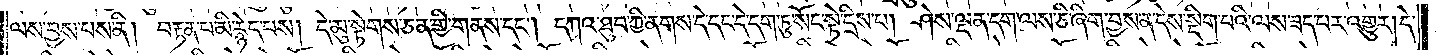ལས་བྱས་པས་ནི། བརྟན་པ་མི་རྙེད་པས། དེ་མུ་སྟེགས་ཅན་གྱི་གནས་དང༌། དཀའ་ཐུབ་ཀྱི་ནགས་དེ་དང་དེ་དག་ཏུ་སོང་སྟེ་དྲིས་པ། ཤེས་ལྡན་དག་ལས་ཅི་ཞིག་བྱས་ན་དེས་སྡིག་པའི་ལས་ཟད་པར་འགྱུར། དེ་
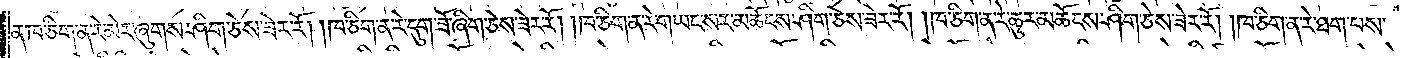ན་ཁ་ཅིག་ན་རེ་མེར་ཞུགས་ཤིག་ཅེས་ཟེར་རོ། །ཁ་ཅིག་ན་རེ་དུག་ཟོ་ཞིག་ཅེས་ཟེར་རོ། །ཁ་ཅིག་ན་རེ་གཡང་སར་མཆོངས་ཤིག་ཅེས་ཟེར་རོ། །ཁ་ཅིག་ན་རེ་ཆུར་མཆོངས་ཤིག་ཅེས་ཟེར་རོ། །ཁ་ཅིག་ན་རེ་ཐག་པས་
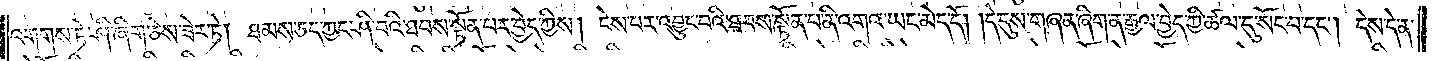འགགས་ཏེ་ཤི་ཞིག་ཅེས་ཟེར་ཏེ། ཐམས་ཅད་ཀྱང་ཤི་བའི་ཐབས་སྟོན་པར་བྱེད་ཀྱིས། ངེས་པར་འབྱུང་བའི་ཐབས་སྟོན་པ་ནི་འགའ་ཡང་མེད་དོ། །དེ་དུས་གཞན་ཞིག་ན་རྒྱལ་བྱེད་ཀྱི་ཚལ་དུ་སོང་བ་དང༌། དེས་དེ་ན་
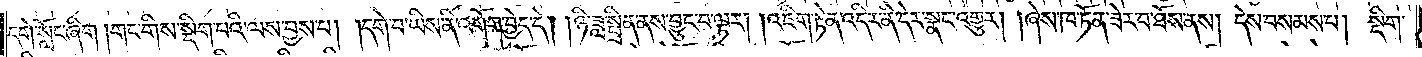དགེ་སློང་ཞིག །གང་གིས་སྡིག་པའི་ལས་བྱས་པ། །དགེ་བ་ཡིས་ནི་འགོག་བྱེད་དེ། །ཉི་ཟླ་སྤྲིན་ནས་བྱུང་བ་ལྟར། །འཇིག་རྟེན་འདིར་ནི་དེར་སྣང་འགྱུར། །ཞེས་ཁ་ཏོན་ཟེར་བ་ཐོས་ནས། དེས་བསམས་པ། སྡིག་
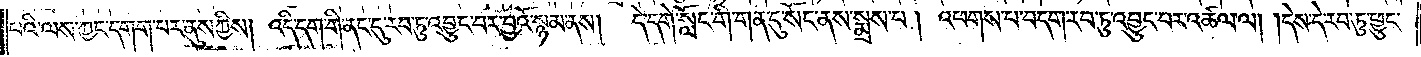པའི་ལས་ཀྱང་དགག་པར་ནུས་ཀྱིས། འདི་དག་གི་ནང་དུ་རབ་ཏུ་འབྱུང་བར་བྱའོ་སྙམ་ནས། དེ་དགེ་སློང་གི་གན་དུ་སོང་ནས་སྨྲས་པ། འཕགས་པ་བདག་རབ་ཏུ་འབྱུང་བར་འཚལ་ལ། །དེས་དེ་རབ་ཏུ་ཕྱུང་
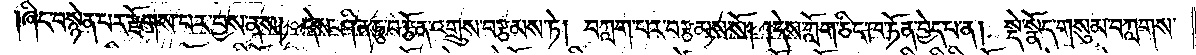ཞིང་བསྙེན་པར་རྫོགས་པར་བྱས་ནས། དེས་ཤིན་ཏུ་བརྩོན་འགྲུས་བརྩམས་ཏེ། བཀླག་པར་བརྩམས་སོ། །དེས་ཀློག་ཅིང་ཁ་ཏོན་བྱེད་པ་ན། སྡེ་སྣོད་གསུམ་བཀླགས་
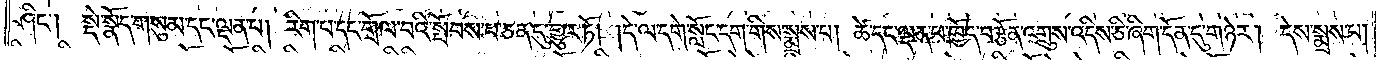ཤིང༌། སྡེ་སྣོད་གསུམ་དང་ལྡན་པ། རིག་པ་དང་གྲོལ་བའི་སྤོབས་པ་ཅན་དུ་གྱུར་ཏོ། །དེ་ལ་དགེ་སློང་དག་གིས་སྨྲས་པ། ཚེ་དང་ལྡན་པ་ཁྱོད་བརྩོན་འགྲུས་འདིས་ཅི་ཞིག་དོན་དུ་གཉེར། དེས་སྨྲས་པ།
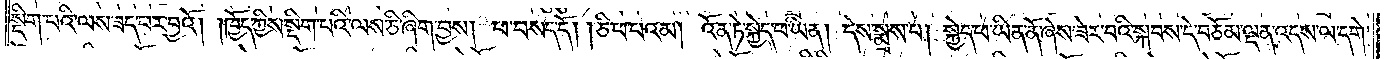སྡིག་པའི་ལས་ཟད་པར་བྱའོ། །ཁྱོད་ཀྱིས་སྡིག་པའི་ལས་ཅི་ཞིག་བྱས། ཕ་བསད་དོ། །ཅི་ཕ་པའམ། འོན་ཏེ་སྐྱེད་ཕ་ཡིན། དེས་སྨྲས་པ། སྐྱེད་ཕ་ཡིན་ནོ་ཞེས་ཟེར་བའི་སྐབས་དེ་བཅོམ་ལྡན་འདས་ལ་དགེ་
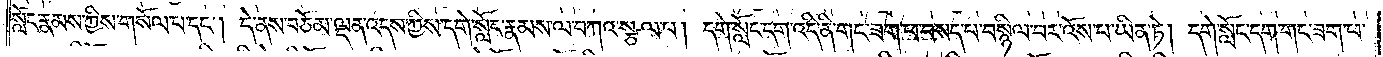སློང་རྣམས་ཀྱིས་གསོལ་པ་དང༌། དེ་ནས་བཅོམ་ལྡན་འདས་ཀྱིས་དགེ་སློང་རྣམས་ལ་བཀའ་སྩལ་པ། དགེ་སློང་དག་འདི་ནི་གང་ཟག་ཕ་བསད་པ་བསྙིལ་བར་འོས་པ་ཡིན་ཏེ། དགེ་སློང་དག་གང་ཟག་ཕ་
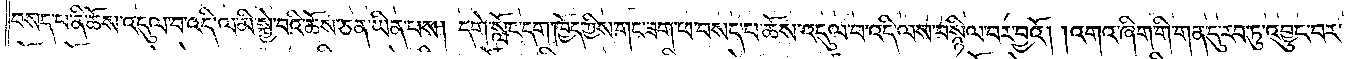བསད་པ་ནི་ཆོས་འདུལ་བ་འདི་ལ་མི་སྐྱེ་བའི་ཆོས་ཅན་ཡིན་པས། དགེ་སློང་དག་ཁྱོད་ཀྱིས་གང་ཟག་ཕ་བསད་པ་ཆོས་འདུལ་བ་འདི་ལས་བསྙིལ་བར་བྱའོ། །འགའ་ཞིག་གི་གན་དུ་རབ་ཏུ་འབྱུང་བར་
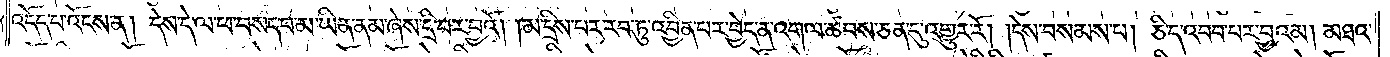འདོད་པ་འོངས་ན། དེས་དེ་ལ་ཕ་བསད་པ་མ་ཡིན་ནམ་ཞེས་དྲི་བར་བྱའོ། །མ་དྲིས་པར་རབ་ཏུ་འབྱིན་པར་བྱེད་ན་འགལ་ཚབས་ཅན་དུ་འགྱུར་རོ། །དེས་བསམས་པ། ཅི་ད་འབབ་པར་བྱའམ། མཐའ་
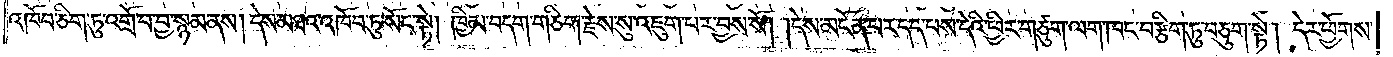འཁོབ་ཅིག་ཏུ་འགྲོ་བ་བྱ་སྙམ་ནས། དེས་མཐའ་འཁོབ་ཏུ་སོང་སྟེ། ཁྱིམ་བདག་གཅིག་རྗེས་སུ་འཇུག་པར་བྱས་སོ། །དེས་མངོན་པར་དད་པས་དེའི་ཕྱིར་གཙུག་ལག་ཁང་བརྩིག་ཏུ་བཅུག་སྟེ། དེར་ཕྱོགས་
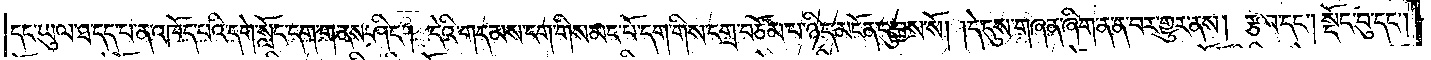དང་ཡུལ་ཐ་དད་པ་ན་འཁོད་པའི་དགེ་སློང་དག་གནས་ཤིང༌། དེའི་གདམས་ངག་གིས་མང་པོ་དག་གིས་དགྲ་བཅོམ་པ་ཉིད་མངོན་དུ་བྱས་སོ། །དེ་དུས་གཞན་ཞིག་ན་ན་བར་གྱུར་ནས། རྩ་བ་དང༌། སྡོང་བུ་དང༌།
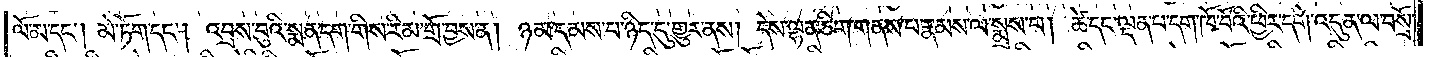ལོ་མ་དང༌། མེ་ཏོག་དང༌། འབྲས་བུའི་སྨན་དག་གིས་རིམ་གྲོ་བྱས་ན། ཉམ་དམས་པ་ཉིད་དུ་གྱུར་ནས། དེས་ལྷན་ཅིག་གནས་པ་རྣམས་ལ་སྨྲས་པ། ཚེ་དང་ལྡན་པ་དག་ཁོ་བོའི་ཕྱིར་དགེ་འདུན་ལ་བསྲོ་
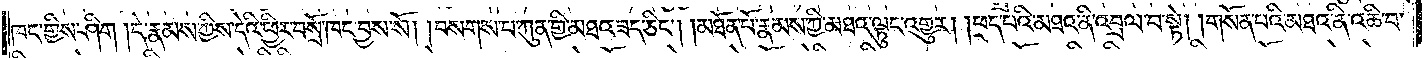ཁང་གྱིས་ཤིག །དེ་རྣམས་ཀྱིས་དེའི་ཕྱིར་བསྲོ་ཁང་བྱས་སོ། །བསགས་པ་ཀུན་གྱི་མཐའ་ཟད་ཅིང༌། །མཐོན་པོ་རྣམས་ཀྱི་མཐའ་ལྟུང་འགྱུར། །ཕྲད་པའི་མཐའ་ནི་འབྲལ་བ་སྟེ། །གསོན་པའི་མཐའ་ནི་འཆི་བ་
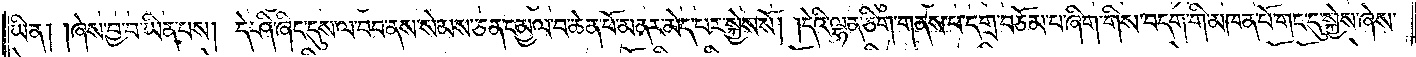ཡིན། །ཞེས་བྱ་བ་ཡིན་པས། དེ་ཤི་ཞིང་དུས་ལ་བབ་ནས་སེམས་ཅན་དམྱལ་བ་ཆེན་པོ་མནར་མེད་པར་སྐྱེས་སོ། །དེའི་ལྷན་ཅིག་གནས་པ་དགྲ་བཅོམ་པ་ཞིག་གིས་བདག་གི་མཁན་པོ་གང་དུ་སྐྱེས་ཞེས་
